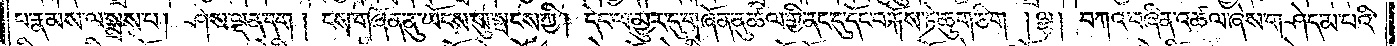པ་རྣམས་ལ་སྨྲས་པ། ཤེས་ལྡན་དག །ངས་གཞོན་ནུ་ཡོངས་སུ་སྤངས་ཀྱི། དེང་ལ་མྱུར་དུ་གཞོན་ནུ་ཚལ་གྱི་ནང་དུ་དོང་བརྐོས་ཏེ་ཆུག་ཅིག །ལྷ། བཀའ་བཞིན་འཚལ་ཞེས་གཤེད་མ་པའི་
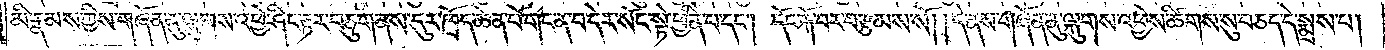མི་རྣམས་ཀྱིས་གཞོན་ནུ་ལྐུགས་འཕྱེ་ཤིང་རྟར་བཅུག་ནས་དུར་ཁྲོད་ཆེན་པོ་གང་ན་བ་དེར་སོང་སྟེ་ཕྱིན་པ་དང༌། དོང་རྐོ་བར་བརྩམས་སོ། །དེ་ནས་གཞོན་ནུ་ལྐུགས་འཕྱེས་ཚིགས་སུ་བཅད་དེ་སྨྲས་པ།
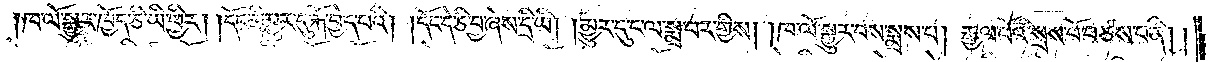ཁ་ལོ་སྒྱུར་ཁྱོད་ཅི་ཡི་ཕྱིར། །དོང་ནི་མྱུར་དུ་རྐོ་བྱེད་པའི། །དོང་དེ་ཅི་བྱ་ཞེས་དྲི་ཡི། །མྱུར་དུ་ང་ལ་སྨྲ་བར་གྱིས། །ཁ་ལོ་སྒྱུར་བས་སྨྲས་པ། རྒྱལ་པོའི་སྲས་བོ་བཙས་པ་ནི།
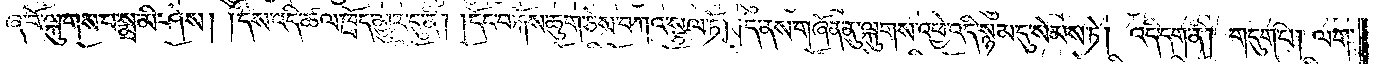ཞ་བོ་ལྐུགས་པ་སྨྲ་མི་ཤེས། །དེས་འདི་ཚལ་ཁྲོད་མྱུར་དུ་ནི། །དོང་བརྐོས་ཆུག་ཅེས་བཀའ་སྩལ་ཏོ། །དེ་ནས་གཞོན་ནུ་ལྐུགས་འཕྱེ་འདི་སྙམ་དུ་སེམས་ཏེ། འདི་དག་ནི། གདུག་པ། ལག་
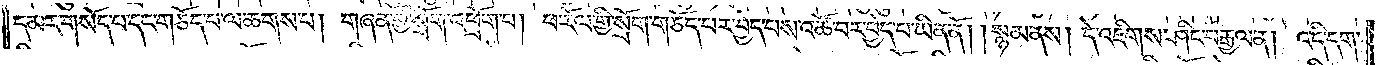དམར་གསོད་པ་དང་གཅོད་པ་ལ་ཆགས་པ། གཞན་གྱི་སྲོག་འཕྲོག་པ། ཕ་རོལ་གྱི་སྲོག་གཅོད་པར་བྱེད་པས་འཚོ་བར་བྱེད་པ་ཡིན་ནོ། །སྙམ་ནས། དེ་འཇིགས་ཤིང་བརྒྱལ་ན། འདི་དག་
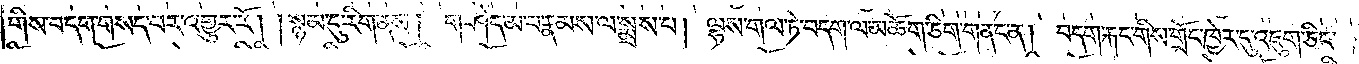གིས་བདག་གསད་པར་འགྱུར་རོ། །སྙམ་དུ་རིག་ནས། གཤེད་མ་པ་རྣམས་ལ་སྨྲས་པ། ལྷས་གལ་ཏེ་བདག་ལ་མཆོག་ཅིག་གནང་ན། བདག་རྐང་གིས་གྲོང་ཁྱེར་དུ་འཇུག་ཅིང་
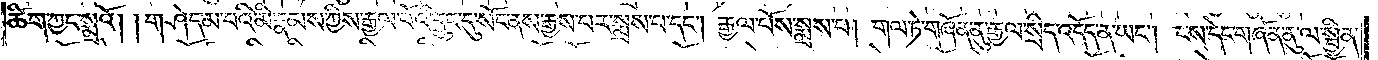ཚིག་ཀྱང་སྨྲའོ། །གཤེད་མ་པའི་མི་རྣམས་ཀྱིས་རྒྱལ་པོའི་དྲུང་དུ་སོང་ནས་རྒྱས་པར་སྨྲས་པ་དང༌། རྒྱལ་པོས་སྨྲས་པ། གལ་ཏེ་གཞོན་ནུ་རྒྱལ་སྲིད་འདོད་ན་ཡང༌། ངས་དེང་གཞོན་ནུ་ལ་སྦྱིན་
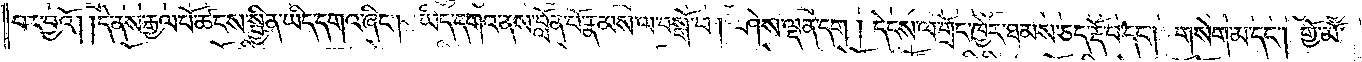པར་བྱའོ། །དེ་ནས་རྒྱལ་པོ་ཚངས་སྦྱིན་ཡིད་དགའ་ཞིང༌། །ཡིད་དགའ་ནས་བློན་པོ་རྣམས་ལ་བསྒོ་བ། ཤེས་ལྡན་དག །དེངས་ལ་གྲོང་ཁྱེར་ཐམས་ཅད་རྡོ་བ་དང༌། གསེག་མ་དང༌། གྱོ་མོ་
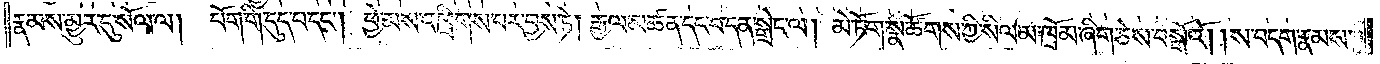རྣམས་མྱུར་དུ་སོལ་ལ། པོག་གི་དུད་པ་དང༌། ཕྱེ་མས་འཁྲིགས་པར་བྱས་ཏེ། རྒྱལ་མཚན་དང་བ་དན་སྒྲེང་ལ། མེ་ཏོག་སྣ་ཚོགས་ཀྱི་སིལ་མ་ཁྲོམ་ཞིག་ཅེས་བསྒོའོ། །ས་བདག་རྣམས་
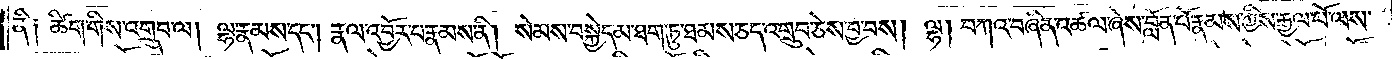ནི༑ ཚིག་གིས་འགྲུབ་ལ། ལྷ་རྣམས་དང༌། རྣལ་འབྱོར་པ་རྣམས་ནི། སེམས་བསྐྱེད་མ་ཐག་ཏུ་ཐམས་ཅད་འགྲུབ་ཅེས་བྱ་བས། ལྷ། བཀའ་བཞིན་འཚལ་ཞེས་བློན་པོ་རྣམས་ཀྱིས་རྒྱལ་པོ་ལས་
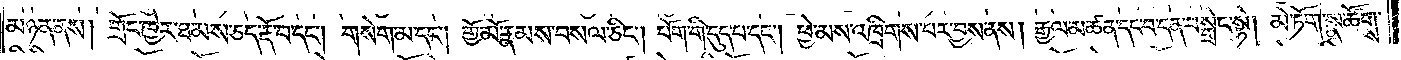མཉན་ནས། གྲོང་ཁྱེར་ཐམས་ཅད་རྡོ་བ་དང༌། གསེག་མ་དང༌། གྱོ་མོ་རྣམས་བསལ་ཅིང༌། པོག་གི་དུད་པ་དང༌། ཕྱེ་མས་འཁྲིགས་པར་བྱས་ནས། རྒྱལ་མཚན་དང་བ་དན་བསྒྲེང་སྟེ། མེ་ཏོག་སྣ་ཚོགས་
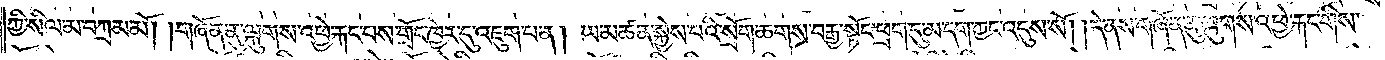ཀྱི་སིལ་མ་བཀྲམ་མོ། །གཞོན་ནུ་ལྐུགས་འཕྱེ་རྐང་པས་གྲོང་ཁྱེར་དུ་འཇུག་པ་ན། ཡ་མཚན་སྐྱེས་པའི་སྲོག་ཆགས་བརྒྱ་སྟོང་ཕྲག་དུ་མ་དག་ཀྱང་འདུས་སོ། །དེ་ནས་གཞོན་ནུ་ལྐུགས་ཕྱེ་རྐང་གིས་
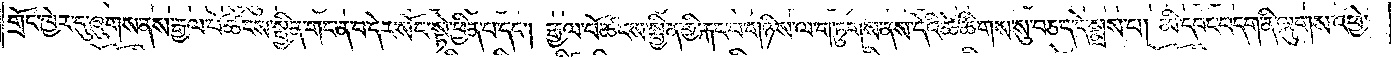གྲོང་ཁྱེར་དུ་ཞུགས་ནས་རྒྱལ་པོ་ཚངས་སྦྱིན་གང་ན་བ་དེར་སོང་སྟེ་ཕྱིན་པ་དང༌། རྒྱལ་པོ་ཚངས་སྦྱིན་གྱི་རྐང་པ་གཉིས་ལ་གཏུགས་ནས་དེའི་ཚེ་ཚིགས་སུ་བཅད་དེ་སྨྲས་པ། མི་དབང་བདག་ནི་ལྐུགས་འཕྱེ་
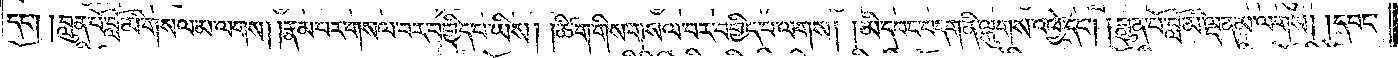དང༌། །བླུན་པོ་བློ་མི་གསལ་མ་ལགས། །རྣམ་པར་གསལ་བར་བགྱིད་པ་ཡིས། །ཚིག་གིས་གསལ་བར་བགྱིད་པ་ལགས། །མི་དབང་བདག་ནི་ལྐུགས་འཕྱེ་དང༌། །བློན་པོ་བློ་མི་ལྡན་མ་ལགས། །དབང་
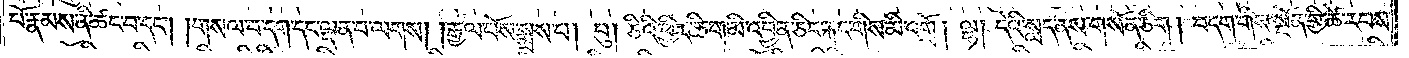པོ་རྣམས་ནི་ཚང་བ་དང༌། །གསལ་བ་དག་དང་ལྡན་པ་ལགས། །རྒྱལ་པོས་སྨྲས་པ། བུ། ཅིའི་ཕྱིར་ཆིག་མི་འབྱིན་ཅིང་རྐང་གིས་མི་འགྲོ། །ལྷ། དེའི་སླད་ནས་གསོན་ཅིག །བདག་གིས་སྔོན་གྱི་ཚེ་རབས་
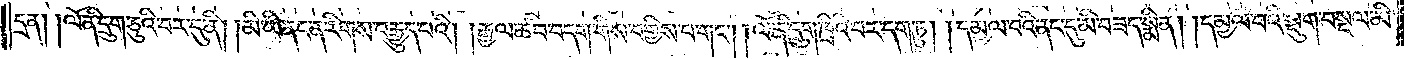དྲན། །ལོ་ནི་དྲུག་ཅུའི་བར་དུ་ནི། །མི་ཡི་ནང་ན་རིགས་བརྒྱུད་པའི། །རྒྱལ་ཚབ་བདག་གིས་བགྱིས་པ་གང༌། །ལོ་ནི་དྲུག་ཁྲིའི་བར་དག་ཏུ། །དམྱལ་བའི་ནང་དུ་མི་བཟད་སྨིན། །དམྱལ་བའི་སྡུག་བསྔལ་མི་
